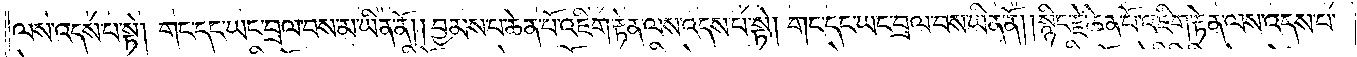ལས་འདས་པ་སྟེ། གང་དང་ཡང་བྲལ་བས་མ་ཡིན་ནོ། །བྱམས་པ་ཆེན་པོ་འཇིག་རྟེན་ལས་འདས་པ་སྟེ། གང་དང་ཡང་བྲལ་བས་མ་ཡིན་ནོ། །སྙིང་རྗེ་ཆེན་པོ་འཇིག་རྟེན་ལས་འདས་པ་
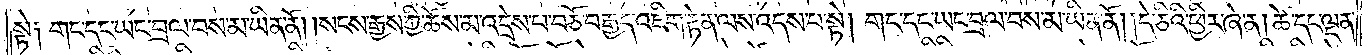སྟེ༑ གང་དང་ཡང་བྲལ་བས་མ་ཡིན་ནོ། །སངས་རྒྱས་ཀྱི་ཆོས་མ་འདྲེས་པ་བཅོ་བརྒྱད་འཇིག་རྟེན་ལས་འདས་པ་སྟེ། གང་དང་ཡང་བྲལ་བས་མ་ཡིན་ནོ། །དེ་ཅིའི་ཕྱིར་ཞེ་ན། ཚེ་དང་ལྡན་
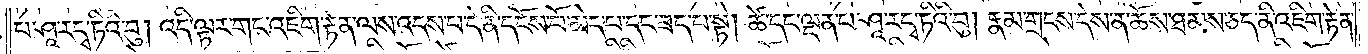པ་ཤཱ་ར་དྭ་ཏིའི་བུ། འདི་ལྟར་གང་འཇིག་རྟེན་ལས་འདས་པ་དེ་ནི་དངོས་པོ་མེད་པ་དང་ཟད་པ་སྟེ། ཚེ་དང་ལྡན་པ་ཤཱ་ར་དྭ་ཏིའི་བུ། རྣམ་གྲངས་དེས་ན་ཆོས་ཐམས་ཅད་ནི་འཇིག་རྟེན་
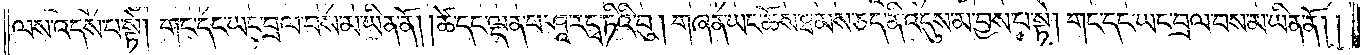ལས་འདས་པ་སྟེ། གང་དང་ཡང་བྲལ་བས་མ་ཡིན་ནོ། །ཚེ་དང་ལྡན་པ་ཤཱ་ར་དྭ་ཏིའི་བུ། གཞན་ཡང་ཆོས་ཐམས་ཅད་ནི་འདུས་མ་བྱས་པ་སྟེ། གང་དང་ཡང་བྲལ་བས་མ་ཡིན་ནོ། །
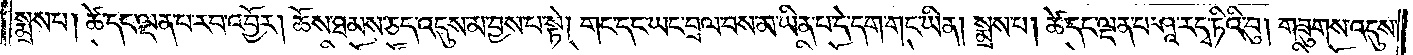སྨྲས་པ། ཚེ་དང་ལྡན་པ་རབ་འབྱོར། ཆོས་ཐམས་ཅད་འདུས་མ་བྱས་པ་སྟེ། གང་དང་ཡང་བྲལ་བས་མ་ཡིན་པ་དེ་དག་གང་ཡིན། སྨྲས་པ། ཚེ་དང་ལྡན་པ་ཤཱ་ར་དྭ་ཏིའི་བུ། གཟུགས་འདུས་
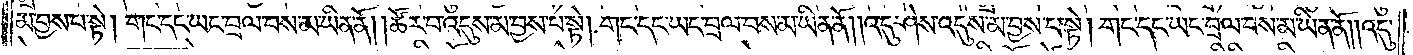མ་བྱས་པ་སྟེ། གང་དང་ཡང་བྲལ་བས་མ་ཡིན་ནོ། །ཚོར་བ་འདུས་མ་བྱས་པ་སྟེ། གང་དང་ཡང་བྲལ་བས་མ་ཡིན་ནོ། །འདུ་ཤེས་འདུས་མ་བྱས་པ་སྟེ། གང་དང་ཡང་བྲལ་བས་མ་ཡིན་ནོ། །འདུ་
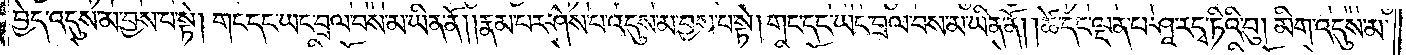བྱེད་འདུས་མ་བྱས་པ་སྟེ། གང་དང་ཡང་བྲལ་བས་མ་ཡིན་ནོ། །རྣམ་པར་ཤེས་པ་འདུས་མ་བྱས་པ་སྟེ། གང་དང་ཡང་བྲལ་བས་མ་ཡིན་ནོ། །ཚེ་དང་ལྡན་པ་ཤཱ་ར་དྭ་ཏིའི་བུ། མིག་འདུས་མ་
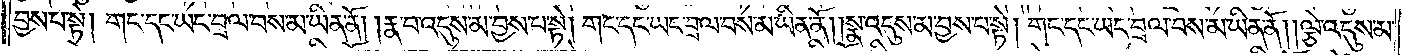བྱས་པ་སྟེ། གང་དང་ཡང་བྲལ་བས་མ་ཡིན་ནོ། །རྣ་བ་འདུས་མ་བྱས་པ་སྟེ། གང་དང་ཡང་བྲལ་བས་མ་ཡིན་ནོ། །སྣ་འདུས་མ་བྱས་པ་སྟེ། གང་དང་ཡང་བྲལ་བས་མ་ཡིན་ནོ། །ལྕེ་འདུས་མ་
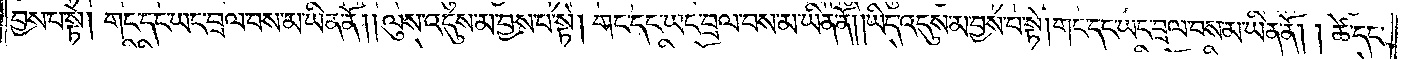བྱས་པ་སྟེ། གང་དང་ཡང་བྲལ་བས་མ་ཡིན་ནོ། །ལུས་འདུས་མ་བྱས་པ་སྟེ། གང་དང་ཡང་བྲལ་བས་མ་ཡིན་ནོ། །ཡིད་འདུས་མ་བྱས་པ་སྟེ། གང་དང་ཡང་བྲལ་བས་མ་ཡིན་ནོ། །ཚེ་དང་
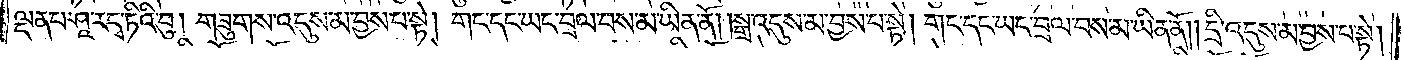ལྡན་པ་ཤཱ་ར་དྭ་ཏིའི་བུ། གཟུགས་འདུས་མ་བྱས་པ་སྟེ། གང་དང་ཡང་བྲལ་བས་མ་ཡིན་ནོ། །སྒྲ་འདུས་མ་བྱས་པ་སྟེ། གང་དང་ཡང་བྲལ་བས་མ་ཡིན་ནོ། །དྲི་འདུས་མ་བྱས་པ་སྟེ།
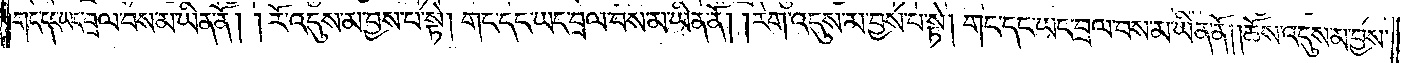གང་དང་ཡང་བྲལ་བས་མ་ཡིན་ནོ། །རོ་འདུས་མ་བྱས་པ་སྟེ། གང་དང་ཡང་བྲལ་བས་མ་ཡིན་ནོ། །རེག་འདུས་མ་བྱས་པ་སྟེ། གང་དང་ཡང་བྲལ་བས་མ་ཡིན་ནོ། །ཆོས་འདུས་མ་བྱས་
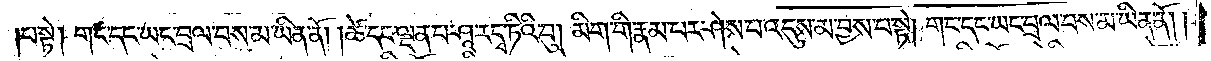པ་སྟེ། གང་དང་ཡང་བྲལ་བས་མ་ཡིན་ནོ། །ཚེ་དང་ལྡན་པ་ཤཱ་ར་དྭ་ཏིའི་བུ། མིག་གི་རྣམ་པར་ཤེས་པ་འདུས་མ་བྱས་པ་སྟེ། གང་དང་ཡང་བྲལ་བས་མ་ཡིན་ནོ། །
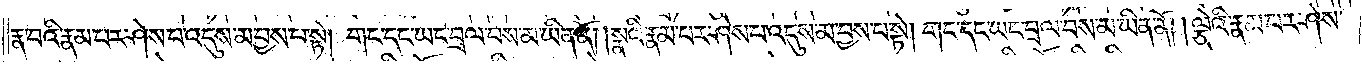རྣ་བའི་རྣམ་པར་ཤེས་པ་འདུས་མ་བྱས་པ་སྟེ། གང་དང་ཡང་བྲལ་བས་མ་ཡིན་ནོ། །སྣའི་རྣམ་པར་ཤེས་པ་འདུས་མ་བྱས་པ་སྟེ། གང་དང་ཡང་བྲལ་བས་མ་ཡིན་ནོ། །ལྕེའི་རྣམ་པར་ཤེས་པ་
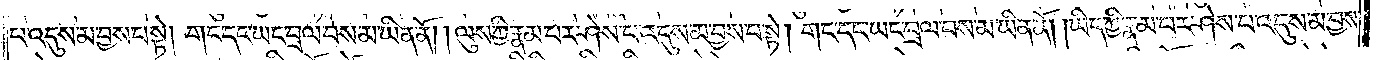འདུས་མ་བྱས་པ་སྟེ། གང་དང་ཡང་བྲལ་བས་མ་ཡིན་ནོ། །ལུས་ཀྱི་རྣམ་པར་ཤེས་པ་འདུས་མ་བྱས་པ་སྟེ། གང་དང་ཡང་བྲལ་བས་མ་ཡིན་ནོ། །ཡིད་ཀྱི་རྣམ་པར་ཤེས་པ་འདུས་མ་བྱས་
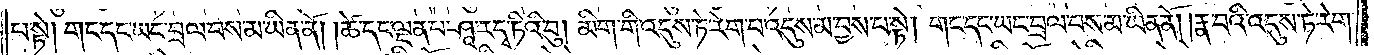པ་སྟེ། གང་དང་ཡང་བྲལ་བས་མ་ཡིན་ནོ། །ཚེ་དང་ལྡན་པ་ཤཱ་ར་དྭ་ཏིའི་བུ། མིག་གི་འདུས་ཏེ་རེག་པ་འདུས་མ་བྱས་པ་སྟེ། གང་དང་ཡང་བྲལ་བས་མ་ཡིན་ནོ། །རྣ་བའི་འདུས་ཏེ་རེག་
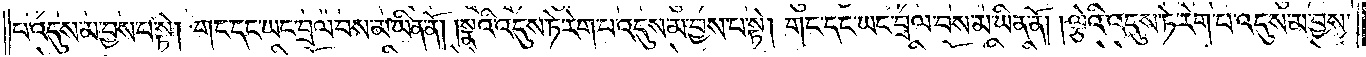པ་འདུས་མ་བྱས་པ་སྟེ། གང་དང་ཡང་བྲལ་བས་མ་ཡིན་ནོ། །སྣའི་འདུས་ཏེ་རེག་པ་འདུས་མ་བྱས་པ་སྟེ། གང་དང་ཡང་བྲལ་བས་མ་ཡིན་ནོ། །ལྕེའི་འདུས་ཏེ་རེག་པ་འདུས་མ་བྱས་
